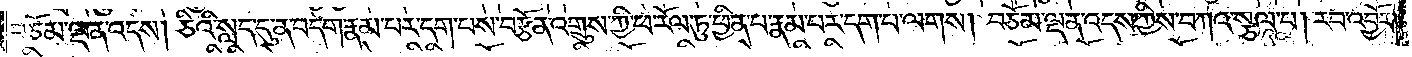བཅོམ་ལྡན་འདས། ཅིའི་སླད་དུ་ན་བདག་རྣམ་པར་དག་པས་བརྩོན་འགྲུས་ཀྱི་ཕ་རོལ་ཏུ་ཕྱིན་པ་རྣམ་པར་དག་པ་ལགས། བཅོམ་ལྡན་འདས་ཀྱིས་བཀའ་སྩལ་པ། རབ་འབྱོར།
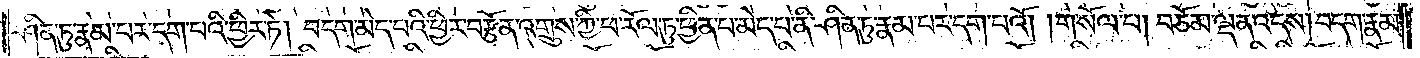ཤིན་ཏུ་རྣམ་པར་དག་པའི་ཕྱིར་ཏེ། བདག་མེད་པའི་ཕྱིར་བརྩོན་འགྲུས་ཀྱི་ཕ་རོལ་ཏུ་ཕྱིན་པ་མེད་པ་ནི་ཤིན་ཏུ་རྣམ་པར་དག་པའོ། །གསོལ་པ། བཅོམ་ལྡན་འདས། བདག་རྣམ་
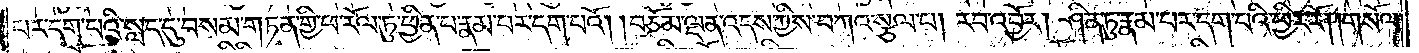པར་དག་པའི་སླད་དུ་བསམ་གཏན་གྱི་ཕ་རོལ་ཏུ་ཕྱིན་པ་རྣམ་པར་དག་པའོ། །བཅོམ་ལྡན་འདས་ཀྱིས་བཀའ་སྩལ་པ། རབ་འབྱོར། ཤིན་ཏུ་རྣམ་པར་དག་པའི་ཕྱིར་རོ། །གསོལ་
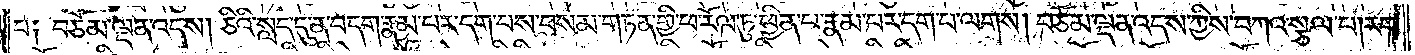པ༑ བཅོམ་ལྡན་འདས། ཅིའི་སླད་དུ་ན་བདག་རྣམ་པར་དག་པས་བསམ་གཏན་གྱི་ཕ་རོལ་ཏུ་ཕྱིན་པ་རྣམ་པར་དག་པ་ལགས། བཅོམ་ལྡན་འདས་ཀྱིས་བཀའ་སྩལ་པ། རབ་
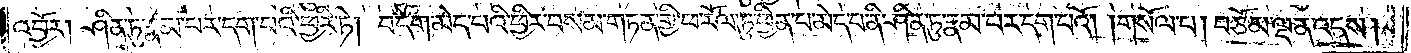འབྱོར། ཤིན་ཏུ་རྣམ་པར་དག་པའི་ཕྱིར་ཏེ། བདག་མེད་པའི་ཕྱིར་བསམ་གཏན་གྱི་ཕ་རོལ་ཏུ་ཕྱིན་པ་མེད་པ་ནི་ཤིན་ཏུ་རྣམ་པར་དག་པའོ། །གསོལ་པ། བཅོམ་ལྡན་འདས།
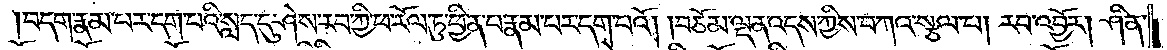བདག་རྣམ་པར་དག་པའི་སླད་དུ་ཤེས་རབ་ཀྱི་ཕ་རོལ་ཏུ་ཕྱིན་པ་རྣམ་པར་དག་པའོ། །བཅོམ་ལྡན་འདས་ཀྱིས་བཀའ་སྩལ་པ། རབ་འབྱོར། ཤིན་
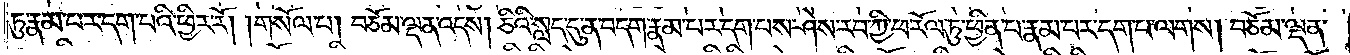ཏུ་རྣམ་པར་དག་པའི་ཕྱིར་རོ། །གསོལ་པ། བཅོམ་ལྡན་འདས། ཅིའི་སླད་དུ་ན་བདག་རྣམ་པར་དག་པས་ཤེས་རབ་ཀྱི་ཕ་རོལ་ཏུ་ཕྱིན་པ་རྣམ་པར་དག་པ་ལགས། བཅོམ་ལྡན་
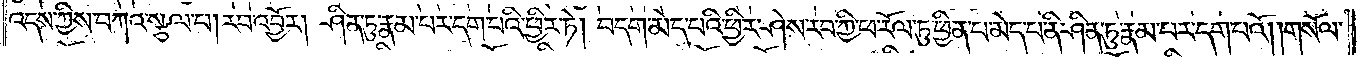འདས་ཀྱིས་བཀའ་སྩལ་པ། རབ་འབྱོར། ཤིན་ཏུ་རྣམ་པར་དག་པའི་ཕྱིར་ཏེ། བདག་མེད་པའི་ཕྱིར་ཤེས་རབ་ཀྱི་ཕ་རོལ་ཏུ་ཕྱིན་པ་མེད་པ་ནི་ཤིན་ཏུ་རྣམ་པར་དག་པའོ། །གསོལ་
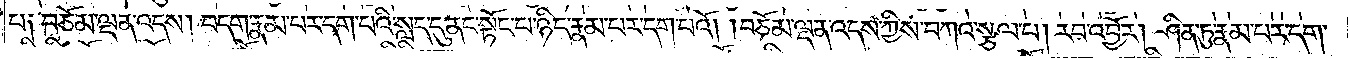པ༑ བཅོམ་ལྡན་འདས། བདག་རྣམ་པར་དག་པའི་སླད་དུ་ནང་སྟོང་པ་ཉིད་རྣམ་པར་དག་པའོ། །བཅོམ་ལྡན་འདས་ཀྱིས་བཀའ་སྩལ་པ། རབ་འབྱོར། ཤིན་ཏུ་རྣམ་པར་དག་
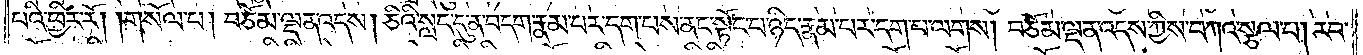པའི་ཕྱིར་རོ། །གསོལ་པ། བཅོམ་ལྡན་འདས། ཅིའི་སླད་དུ་ན་བདག་རྣམ་པར་དག་པས་ནང་སྟོང་པ་ཉིད་རྣམ་པར་དག་པ་ལགས། བཅོམ་ལྡན་འདས་ཀྱིས་བཀའ་སྩལ་པ། རབ་
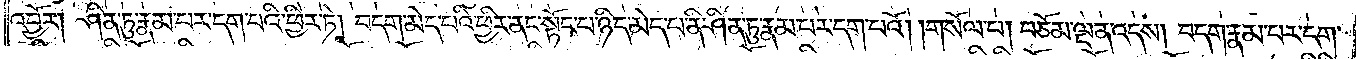འབྱོར། ཤིན་ཏུ་རྣམ་པར་དག་པའི་ཕྱིར་ཏེ། བདག་མེད་པའི་ཕྱིར་ནང་སྟོང་པ་ཉིད་མེད་པ་ནི་ཤིན་ཏུ་རྣམ་པར་དག་པའོ། །གསོལ་པ། བཅོམ་ལྡན་འདས། བདག་རྣམ་པར་དག་
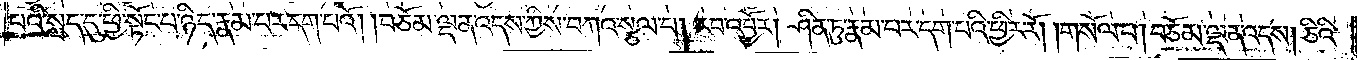པའི་སླད་དུ་ཕྱི་སྟོང་པ་ཉིད་རྣམ་པར་དག་པའོ། །བཅོམ་ལྡན་འདས་ཀྱིས་བཀའ་སྩལ་པ། རབ་འབྱོར། ཤིན་ཏུ་རྣམ་པར་དག་པའི་ཕྱིར་རོ། །གསོལ་པ། བཅོམ་ལྡན་འདས། ཅིའི་
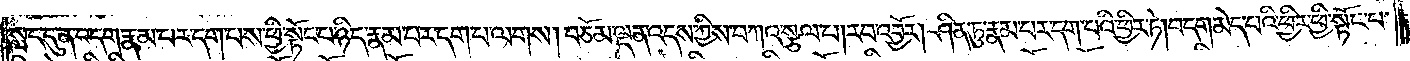སླད་དུ་ན་བདག་རྣམ་པར་དག་པས་ཕྱི་སྟོང་པ་ཉིད་རྣམ་པར་དག་པ་ལགས། བཅོམ་ལྡན་འདས་ཀྱིས་བཀའ་སྩལ་པ། རབ་འབྱོར། ཤིན་ཏུ་རྣམ་པར་དག་པའི་ཕྱིར་ཏེ། བདག་མེད་པའི་ཕྱིར་ཕྱི་སྟོང་པ་
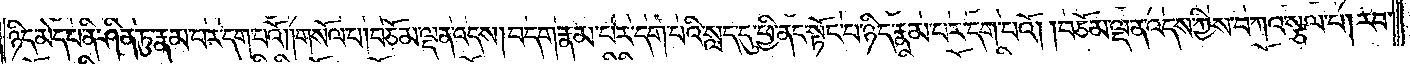ཉིད་མེད་པ་ནི་ཤིན་ཏུ་རྣམ་པར་དག་པའོ། །གསོལ་པ། བཅོམ་ལྡན་འདས། བདག་རྣམ་པར་དག་པའི་སླད་དུ་ཕྱི་ནང་སྟོང་པ་ཉིད་རྣམ་པར་དག་པའོ། །བཅོམ་ལྡན་འདས་ཀྱིས་བཀའ་སྩལ་པ། རབ་
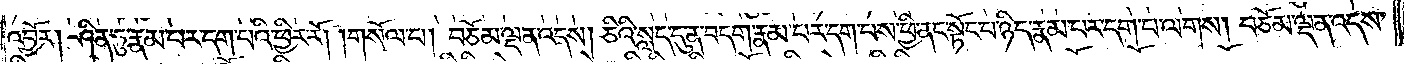འབྱོར། ཤིན་ཏུ་རྣམ་པར་དག་པའི་ཕྱིར་རོ། །གསོལ་པ། བཅོམ་ལྡན་འདས། ཅིའི་སླད་དུ་ན་བདག་རྣམ་པར་དག་པས། ཕྱི་ནང་སྟོང་པ་ཉིད་རྣམ་པར་དག་པ་ལགས། བཅོམ་ལྡན་འདས་
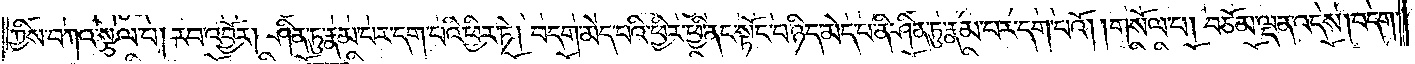ཀྱིས་བཀའ་སྩལ་པ། རབ་འབྱོར། ཤིན་ཏུ་རྣམ་པར་དག་པའི་ཕྱིར་ཏེ། བདག་མེད་པའི་ཕྱིར་ཕྱི་ནང་སྟོང་པ་ཉིད་མེད་པ་ནི་ཤིན་ཏུ་རྣམ་པར་དག་པའོ། །གསོལ་པ། བཅོམ་ལྡན་འདས། བདག་
